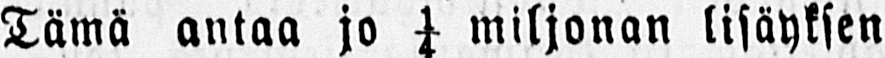Tämä antaa jo miljonan lisäyksen
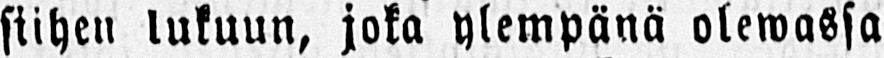siihen lukuun, joka ylempänä olemassa
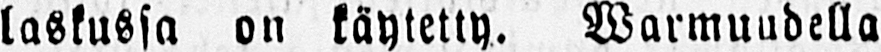laskussa on käytetty. Warmuudella
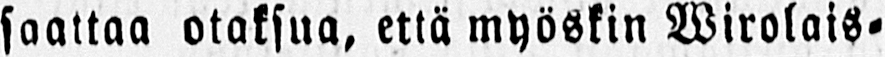saattaa otaksua, että myöskin Wirolais-
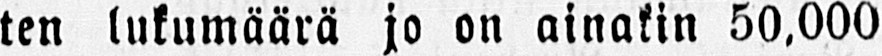ten lukumäärä jo on ainakin 50,000
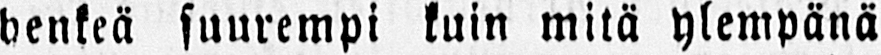henkeä suurempi kuin mitä ylempänä
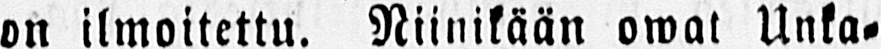on ilmoitettu. Niinikään omat Unka-
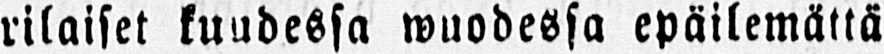rilaiset kuudessa wuodessa epäilemättä
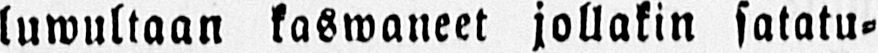luwultaan kaswaneet jollakin satatu-
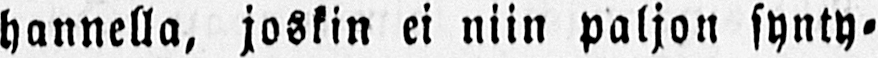hannella, joskin ei niin paljon synty-
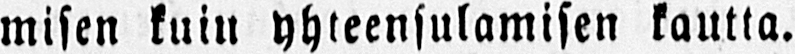misen kuin yhteensulamisen kautta.
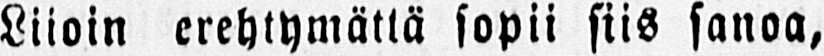Liioin erehtymättä sopii siis sanoa,
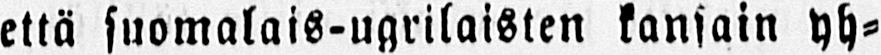että suomalais-ugrilaisten kansain yh-
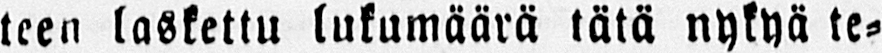teen laskettu lukumäärä tätä nykyä te-
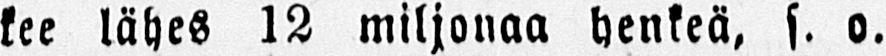kee lähes 12 miljonaa henkeä, s. o.
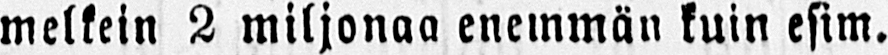melkein 2 miljonaa enemmän kuin esim.
